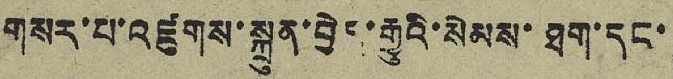གསར་པ་འཛུགས་སྐྲུན་བྱེད་རྒྱུའི་སེམས་ཐག་དང་
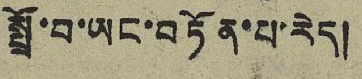སྤྲོ་བ་ཡང་བཏོན་པ་རེད།
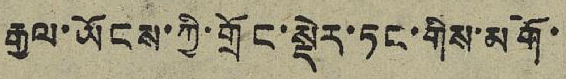རྒྱལ་ཡོངས་ཀྱི་གྲོང་སྡེར་ཏང་གིས་མགོ་
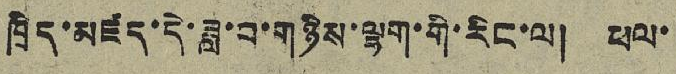ཁྲིད་མཛད་དེ་ཟླ་བ་གཉིས་ལྷག་གི་རིང་ལ། ཕལ་
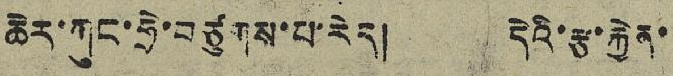ཆེར་ཀུང་ཧྲེ་བཙུགས་པ་རེད། དེའི་རྩ་རྐྱེན་
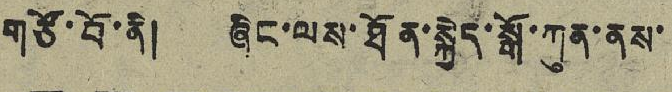གཙོ་བོ་ནི། ཞིང་ལས་ཐོན་སྐྱེད་སྒོ་ཀུན་ནས་
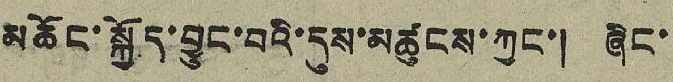མཆོང་སྐྱོད་བྱུང་བའི་དུས་མཚུངས་ཀྱང་། ཞིང་
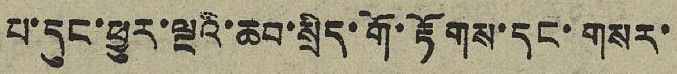པ་དུང་ཕྱུར་ལྔའི་ཆབ་སྲིད་གོ་རྟོགས་དང་གསར་
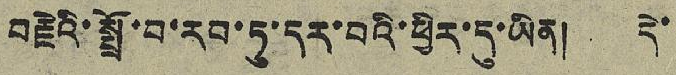བརྗེའི་སྤྲོ་བ་རབ་ཏུ་དར་བའི་ཕྱིར་དུ་ཡིན། དེ་
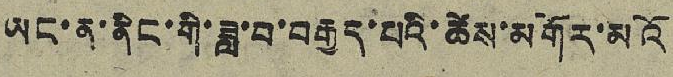ཡང་ན་ནིང་གི་ཟླ་བ་བརྒྱད་པའི་ཚེས་མགོར་མའོ
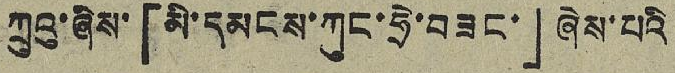ཀྲུའུ་ཞིས་「མི་དམངས་ཀུང་ཧྲེ་བཟང་」ཞེས་པའི
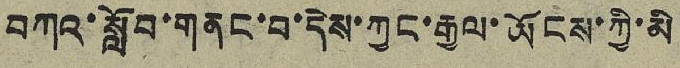བཀའ་སློབ་གནང་བ་དེས་ཀྱང་རྒྱལ་ཡོངས་ཀྱི་མི
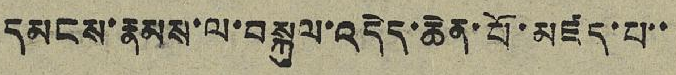དམངས་རྣམས་ལ་བསྐུལ་འདེད་ཆེན་པོ་མཛད་པ་་
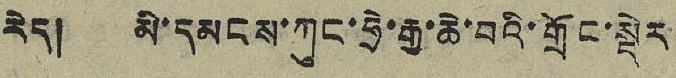རེད། མི་དམངས་ཀུང་ཧྲེ་རྒྱ་ཆེ་བའི་གྲོང་སྡེར
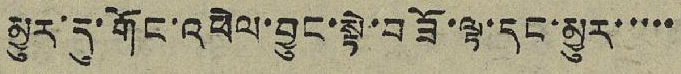མྱུར་དུ་གོང་འཕེལ་བྱུང་སྟེ་བཟོ་ལྟ་དང་མྱུར་་་་་
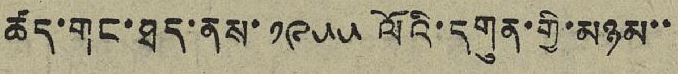ཚད་གང་ཐད་ནས་ ༡༩༥༥ ལོའི་དགུན་གྱི་མཉམ་་
